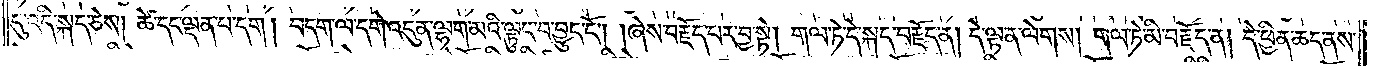དུ་འདི་སྐད་ཅེས། ཚེ་དང་ལྡན་པ་དག ། བདག་ལ་དགེ་འདུན་ལྷག་མའི་ལྟུང་བ་བྱུང་ངོ༌། །ཞེས་བརྗོད་པར་བྱ་སྟེ། གལ་ཏེ་དེ་སྐད་བརྗོད་ན། དེ་ལྟ་ན་ལེགས། གལ་ཏེ་མི་བརྗོད་ན། དེ་ཕྱིན་ཆད་ནས་
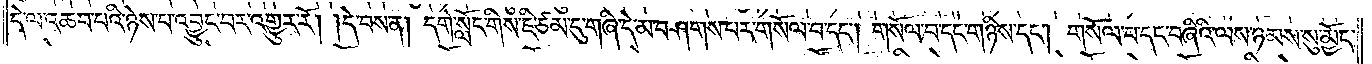དེ་ལ་འཆབ་པའི་ཉེས་པ་འབྱུང་བར་འགྱུར་རོ། །དེ་བས་ན། དགེ་སློང་གིས་ཇི་ཙམ་དུ་གཞི་དེ་མ་བཤགས་པར་གསོལ་བ་དང༌། གསོལ་བ་དང་གཉིས་དང༌། གསོལ་བ་དང་བཞིའི་ལས་ཉམས་སུ་མྱོང་
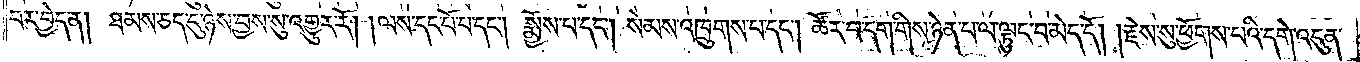བར་བྱེད་ན། ཐམས་ཅད་དུ་ཉེས་བྱས་སུ་འགྱུར་རོ། །ལས་དང་པོ་པ་དང༌། སྨྱོས་པ་དང༌། སེམས་འཁྲུགས་པ་དང༌། ཚོར་བ་དག་གིས་ཉེན་པ་ལ་ལྟུང་བ་མེད་དོ། །རྗེས་སུ་ཕྱོགས་པའི་དགེ་འདུན་
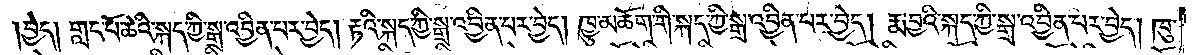བྱེད། གླང་པོ་ཆེའི་སྐད་ཀྱི་སྒྲ་འབྱིན་པར་བྱེད། རྟའི་སྐད་ཀྱི་སྒྲ་འབྱིན་པར་བྱེད། ཁྱུ་མཆོག་གི་སྐད་ཀྱི་སྒྲ་འབྱིན་པར་བྱེད། རྨ་བྱའི་སྐད་ཀྱི་སྒྲ་འབྱིན་པར་བྱེད། ཁུ་
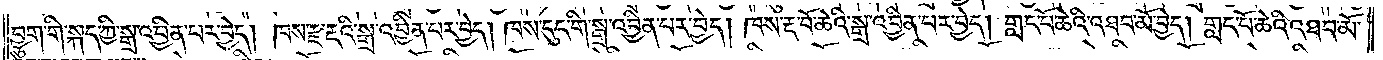བྱུག་གི་སྐད་ཀྱི་སྒྲ་འབྱིན་པར་བྱེད། ཁས་རྫ་རྔའི་སྒྲ་འབྱིན་པར་བྱེད། ཁས་དུང་གི་སྒྲ་འབྱིན་པར་བྱེད། ཁས་རྔ་བོ་ཆེའི་སྒྲ་འབྱིན་པར་བྱེད། གླང་པོ་ཆེའི་འཐབ་མོ་བྱེད། གླང་པོ་ཆེའི་འཐབ་མོ་
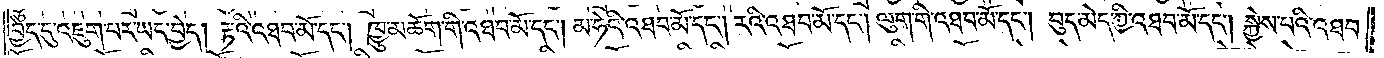བྱེད་དུ་འཇུག་པར་ཡང་བྱེད། རྟའི་འཐབ་མོ་དང༌། ཁྱུ་མཆོག་གི་འཐབ་མོ་དང༌། མ་ཧེའི་འཐབ་མོ་དང༌། རའི་འཐབ་མོ་དང༌། ལུག་གི་འཐབ་མོ་དང༌། བུད་མེད་ཀྱི་འཐབ་མོ་དང༌། སྐྱེས་པའི་འཐབ་
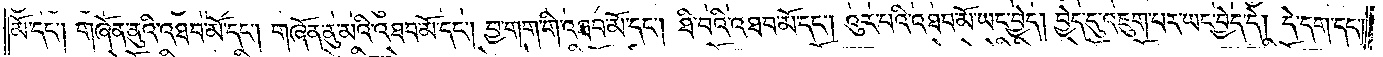མོ་དང༌། གཞོན་ནུའི་འཐབ་མོ་དང༌། གཞོན་ནུ་མའི་འཐབ་མོ་དང༌། བྱ་གག་གི་འཐབ་མོ་དང༌། ཐི་བའི་འཐབ་མོ་དང༌། འུར་པའི་འཐབ་མོ་ཡང་བྱེད། བྱེད་དུ་འཇུག་པར་ཡང་བྱེད་དེ། དེ་དག་དང༌།
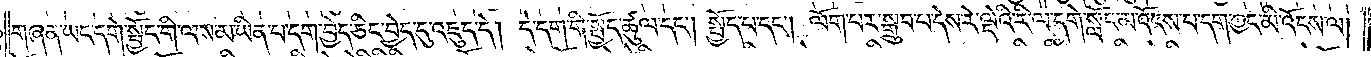གཞན་ཡང་དགེ་སྦྱོང་གི་ལས་མ་ཡིན་པ་དག་བྱེད་ཅིང་བྱེད་དུ་འཇུད་དེ། དེ་དག་གི་སྤྱོད་ཚུལ་དང༌། སྤྱོད་པ་དང༌། ལོག་པར་སྒྲུབ་པ་དེས་རེ་ལྡེའི་རི་ལ་དགེ་སློང་མ་འོངས་པ་དག་ཀྱང་མི་འོངས་ལ།
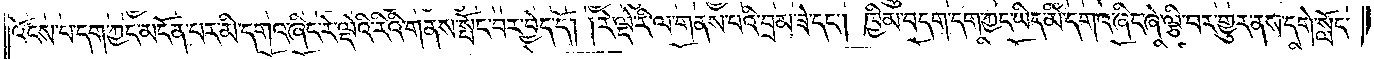འོངས་པ་དག་ཀྱང་མངོན་པར་མི་དགའ་ཞིང་རེ་ལྡེའི་རིའི་གནས་སྤོང་བར་བྱེད་དོ། །རེ་ལྡེ་རི་ལ་གནས་པའི་བྲམ་ཟེ་དང༌། ཁྱིམ་བདག་དག་ཀྱང་ཡིད་མི་དགའ་ཞིང་ཞེ་ལྕི་བར་གྱུར་ནས་དགེ་སློང་
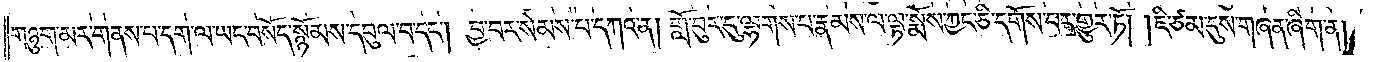གཉུག་མར་གནས་པ་དག་ལ་ཡང་བསོད་སྙོམས་དབུལ་བ་དང༌། བྱ་བར་སེམས་པ་དགའ་ན། གློ་བུར་དུ་ལྷགས་པ་རྣམས་ལ་ལྟ་སྨོས་ཀྱང་ཅི་དགོས་པར་གྱུར་ཏོ། །ཇི་ཙམ་དུས་གཞན་ཞིག་ན།
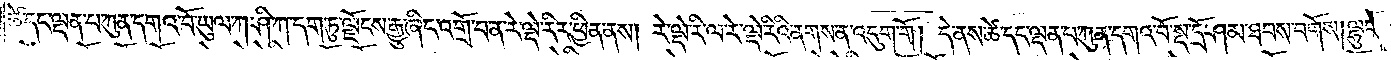ཚེ་དང་ལྡན་པ་ཀུན་དགའ་བོ་ཡུལ་ཀ་ཤི་ཀ་དག་ཏུ་ལྗོངས་རྒྱུ་ཞིང་འགྲོ་བ་ན་རེ་ལྡེ་རིར་ཕྱིན་ནས། རེ་ལྡེ་རི་ལ་རེ་ལྡེ་རིའི་ནགས་ན་འདུག་གོ། དེ་ནས་ཚེ་དང་ལྡན་པ་ཀུན་དགའ་བོ་སྔ་དྲོ་ཤམ་ཐབས་བགོས། ལྷུང་
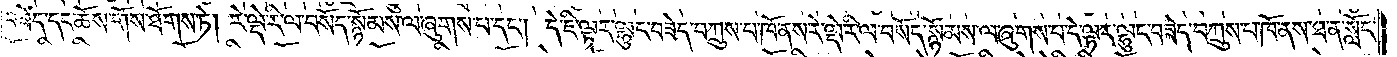བཟེད་དང་ཆོས་གོས་ཐོགས་ཏེ། རེ་ལྡེ་རི་ལ་བསོད་སྙོམས་ལ་ཞུགས་པ་དང༌། དེ་ཇི་ལྟར་ལྷུང་བཟེད་བཀྲུས་པ་ཁོ་ནས་རེ་ལྡེ་རི་ལ་བསོད་སྙོམས་ལ་ཞུགས་པ་དེ་ལྟར་ལྷུང་བཟེད་བཀྲུས་པ་ཁོ་ནས་ཐ་ན་སློང་
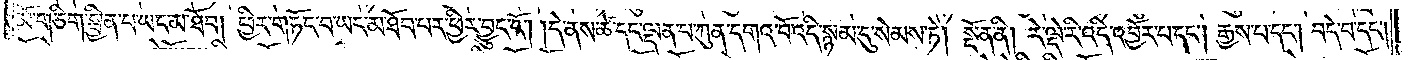མོ་གཅིག་སྦྱིན་པ་ཡང་མ་ཐོབ། ཕྱིར་གཏོང་བ་ཡང་མ་ཐོབ་པར་ཕྱིར་བྱུང་ངོ༌། །དེ་ནས་ཚེ་དང་ལྡན་པ་ཀུན་དགའ་བོ་འདི་སྙམ་དུ་སེམས་ཏེ། སྔོན་ནི། རེ་ལྡེ་རི་འདི་འབྱོར་པ་དང༌། རྒྱས་པ་དང༌། བདེ་བ་དང༌།
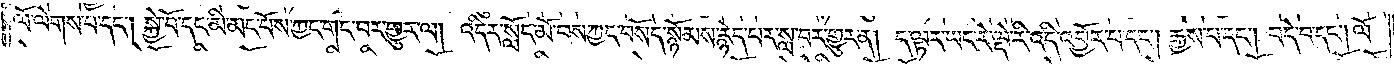ལོ་ལེགས་པ་དང༌། སྐྱེ་བོ་དང་མི་མང་པོས་ཀྱང་གང་བར་གྱུར་ལ། འདིར་སློང་མོ་བས་ཀྱང་བསོད་སྙོམས་རྙེད་པར་སླ་བར་གྱུར་ན། ད་ལྟར་ཡང་རེ་ལྡེ་རེ་འདི་འབྱོར་པ་དང༌། རྒྱས་པ་དང༌། བདེ་བ་དང༌། ལོ་
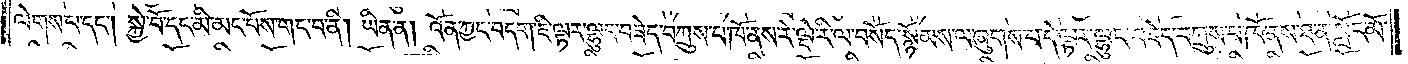ལེགས་པ་དང༌། སྐྱེ་བོ་དང་མི་མང་པོས་གང་བ་ནི། ཡིན་ན། འོན་ཀྱང་བདག་ཇི་ལྟར་ལྷུང་བཟེད་བཀྲུས་པ་ཁོ་ནས་རེ་ལྡེ་རི་ལ་བསོད་སྙོམས་ལ་ཞུགས་པ་དེ་ལྟར་ལྷུང་བཟེད་བཀྲུས་པ་ཁོ་ནས་ཐ་ན་སློང་མོ་
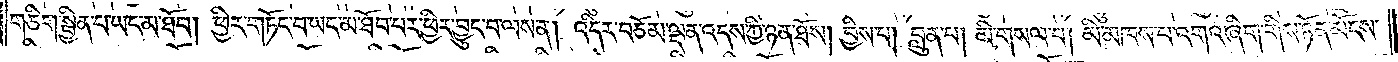གཅིག་སྦྱིན་པ་ཡང་མ་ཐོབ། ཕྱིར་གཏོང་བ་ཡང་མ་ཐོབ་པར་ཕྱིར་བྱུང་བ་ལས་ན། འདིར་བཅོམ་ལྡན་འདས་ཀྱི་ཉན་ཐོས། བྱིས་པ། བླུན་པ། མི་གསལ་བ། མི་མཁས་པ་འགའ་ཞིག་གིས་ཉོན་མོངས་
